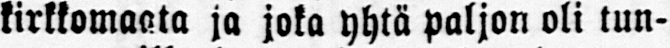kirkkomaata ja joka yhtä paljon oli tun-
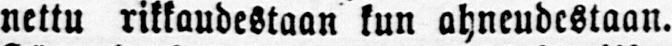nettu rikkaudestaan kun ahneudestaan.
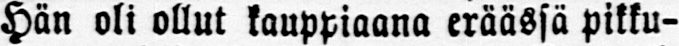Hän oli ollut kauppiaana eräässä pikku-
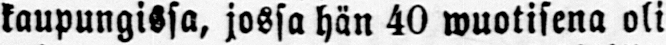kaupungissa, jossa hän 40 wuotisena oli
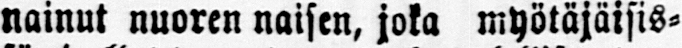nainut nuoren naisen, joka myötäjäisis-
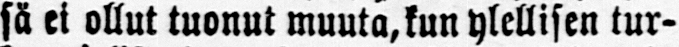sä et ollut tuonut muuta, kun ylellisen tur-
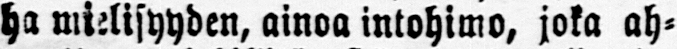ha mielisyyden, ainoa intohimo, joka ah-
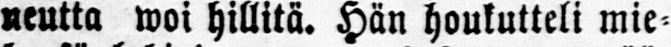neutta woi hillitä. Hän houkutteli mie-
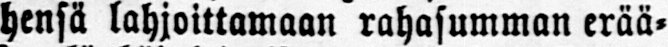hensä lahjoittamaan rahasumman erää-
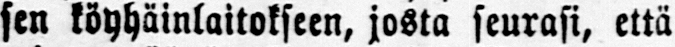sen köyhäinlaitokseen, josta seurasi, että
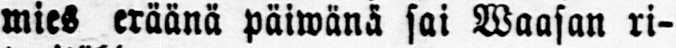mies eräänä päiwänä sai Waasan ri-
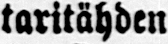taritähden
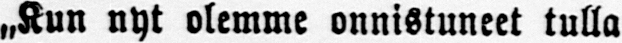„Kun nyt olemme onnistuneet tulla
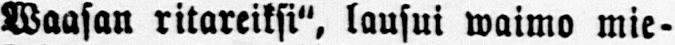Waasan ritareiksi", lausui waimo mie-
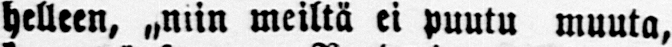helleen, ˶niin meiltä ei puutu muuta,
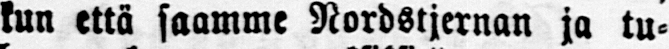kun että saamme Nordstjernan ja tu-
